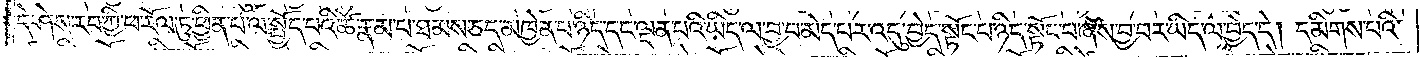དེ་ཤེས་རབ་ཀྱི་ཕ་རོལ་ཏུ་ཕྱིན་པ་ལ་སྤྱོད་པའི་ཚེ་རྣམ་པ་ཐམས་ཅད་མཁྱེན་པ་ཉིད་དང་ལྡན་པའི་ཡིད་ལ་བྱ་བ་མེད་པར་འདུ་བྱེད་སྟོང་པ་ཉིད་སྟོང་པ་ཞེས་བྱ་བར་ཡིད་ལ་བྱེད་དེ། དམིགས་པའི་
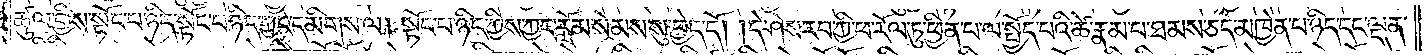ཚུལ་གྱིས་སྟོང་པ་ཉིད་སྟོང་པ་ཉིད་ཀྱང་དམིགས་ལ། སྟོང་པ་ཉིད་ཀྱིས་ཀྱང་རློམ་སེམས་སུ་བྱེད་དོ། །དེ་ཤེས་རབ་ཀྱི་ཕ་རོལ་ཏུ་ཕྱིན་པ་ལ་སྤྱོད་པའི་ཚེ་རྣམ་པ་ཐམས་ཅད་མཁྱེན་པ་ཉིད་དང་ལྡན་
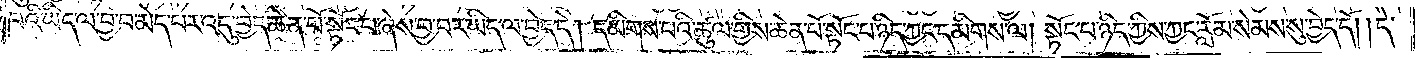པའི་ཡིད་ལ་བྱ་བ་མེད་པར་འདུ་བྱེད་ཆེན་པོ་སྟོང་པ་ཞེས་བྱ་བར་ཡིད་ལ་བྱེད་དེ། དམིགས་པའི་ཚུལ་གྱིས་ཆེན་པོ་སྟོང་པ་ཉིད་ཀྱང་དམིགས་ལ། སྟོང་པ་ཉིད་ཀྱིས་ཀྱང་རློམ་སེམས་སུ་བྱེད་དོ། །དེ་
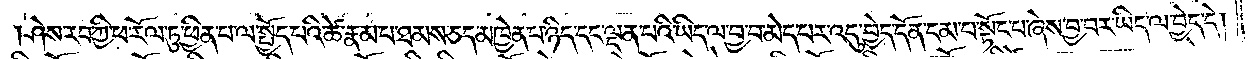ཤེས་རབ་ཀྱི་ཕ་རོལ་ཏུ་ཕྱིན་པ་ལ་སྤྱོད་པའི་ཚེ་རྣམ་པ་ཐམས་ཅད་མཁྱེན་པ་ཉིད་དང་ལྡན་པའི་ཡིད་ལ་བྱ་བ་མེད་པར་འདུ་བྱེད་དོན་དམ་པ་སྟོང་པ་ཞེས་བྱ་བར་ཡིད་ལ་བྱེད་དེ།
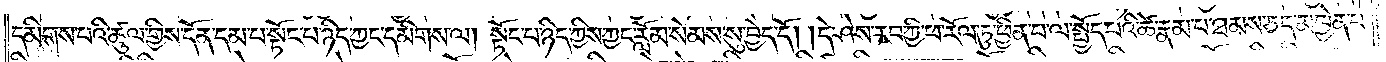དམིགས་པའི་ཚུལ་གྱིས་དོན་དམ་པ་སྟོང་པ་ཉིད་ཀྱང་དམིགས་ལ། སྟོང་པ་ཉིད་ཀྱིས་ཀྱང་རློམ་སེམས་སུ་བྱེད་དོ། །དེ་ཤེས་རབ་ཀྱི་ཕ་རོལ་ཏུ་ཕྱིན་པ་ལ་སྤྱོད་པའི་ཚེ་རྣམ་པ་ཐམས་ཅད་མཁྱེན་པ་
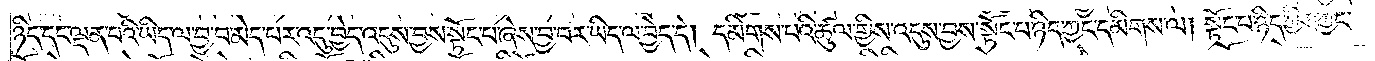ཉིད་དང་ལྡན་པའི་ཡིད་ལ་བྱ་བ་མེད་པར་འདུ་བྱེད་འདུས་བྱས་སྟོང་པ་ཞེས་བྱ་བར་ཡིད་ལ་བྱེད་དེ། དམིགས་པའི་ཚུལ་གྱིས་འདུས་བྱས་སྟོང་པ་ཉིད་ཀྱང་དམིགས་ལ། སྟོང་པ་ཉིད་ཀྱིས་ཀྱང་
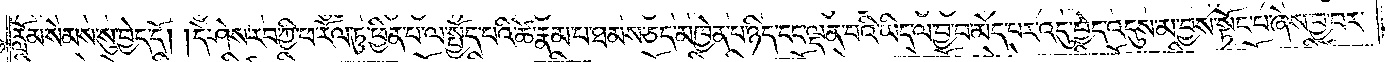རློམ་སེམས་སུ་བྱེད་དོ། །དེ་ཤེས་རབ་ཀྱི་ཕ་རོལ་ཏུ་ཕྱིན་པ་ལ་སྤྱོད་པའི་ཚེ་རྣམ་པ་ཐམས་ཅད་མཁྱེན་པ་ཉིད་དང་ལྡན་པའི་ཡིད་ལ་བྱ་བ་མེད་པར་འདུ་བྱེད་འདུས་མ་བྱས་སྟོང་པ་ཞེས་བྱ་བར་
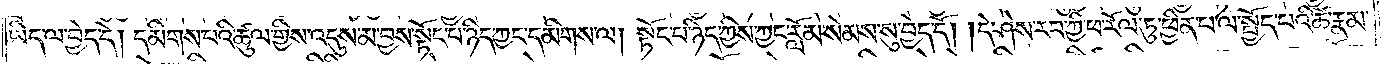ཡིད་ལ་བྱེད་དེ། དམིགས་པའི་ཚུལ་གྱིས་འདུས་མ་བྱས་སྟོང་པ་ཉིད་ཀྱང་དམིགས་ལ། སྟོང་པ་ཉིད་ཀྱིས་ཀྱང་རློམ་སེམས་སུ་བྱེད་དོ། །དེ་ཤེས་རབ་ཀྱི་ཕ་རོལ་ཏུ་ཕྱིན་པ་ལ་སྤྱོད་པའི་ཚེ་རྣམ་
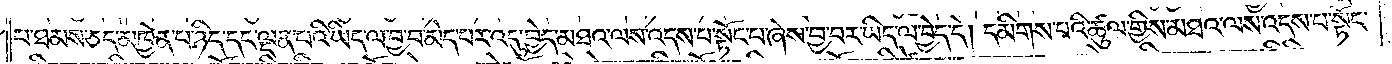པ་ཐམས་ཅད་མཁྱེན་པ་ཉིད་དང་ལྡན་པའི་ཡིད་ལ་བྱ་བ་མེད་པར་འདུ་བྱེད་མཐའ་ལས་འདས་པ་སྟོང་པ་ཞེས་བྱ་བར་ཡིད་ལ་བྱེད་དེ། དམིགས་པའི་ཚུལ་གྱིས་མཐའ་ལས་འདས་པ་སྟོང་
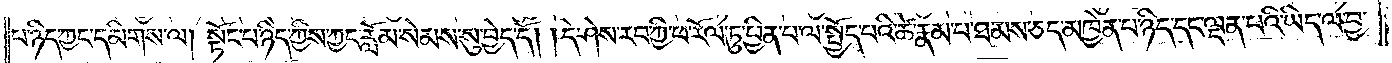པ་ཉིད་ཀྱང་དམིགས་ལ། སྟོང་པ་ཉིད་ཀྱིས་ཀྱང་རློམ་སེམས་སུ་བྱེད་དོ། །དེ་ཤེས་རབ་ཀྱི་ཕ་རོལ་ཏུ་ཕྱིན་པ་ལ་སྤྱོད་པའི་ཚེ་རྣམ་པ་ཐམས་ཅད་མཁྱེན་པ་ཉིད་དང་ལྡན་པའི་ཡིད་ལ་བྱ་
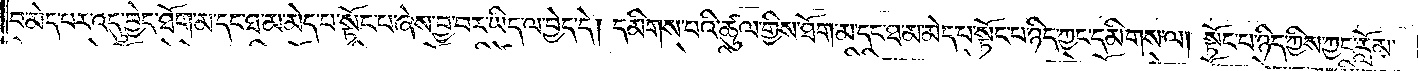བ་མེད་པར་འདུ་བྱེད་ཐོག་མ་དང་ཐ་མ་མེད་པ་སྟོང་པ་ཞེས་བྱ་བར་ཡིད་ལ་བྱེད་དེ། དམིགས་པའི་ཚུལ་གྱིས་ཐོག་མ་དང་ཐ་མ་མེད་པ་སྟོང་པ་ཉིད་ཀྱང་དམིགས་ལ། སྟོང་པ་ཉིད་ཀྱིས་ཀྱང་རློམ་
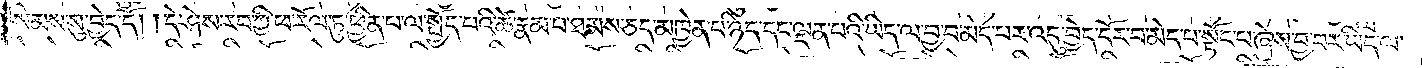སེམས་སུ་བྱེད་དོ། །དེ་ཤེས་རབ་ཀྱི་ཕ་རོལ་ཏུ་ཕྱིན་པ་ལ་སྤྱོད་པའི་ཚེ་རྣམ་པ་ཐམས་ཅད་མཁྱེན་པ་ཉིད་དང་ལྡན་པའི་ཡིད་ལ་བྱ་བ་མེད་པར་འདུ་བྱེད་དོར་བ་མེད་པ་སྟོང་པ་ཞེས་བྱ་བར་ཡིད་ལ་
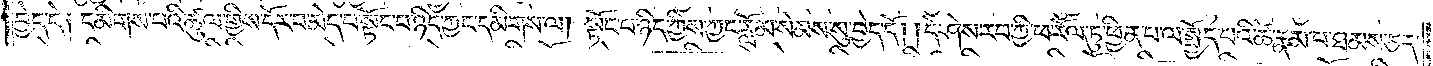བྱེད་དེ༑ དམིགས་པའི་ཚུལ་གྱིས་དོར་བ་མེད་པ་སྟོང་པ་ཉིད་ཀྱང་དམིགས་ལ། སྟོང་པ་ཉིད་ཀྱིས་ཀྱང་རློམ་སེམས་སུ་བྱེད་དོ། །དེ་ཤེས་རབ་ཀྱི་ཕ་རོལ་ཏུ་ཕྱིན་པ་ལ་སྤྱོད་པའི་ཚེ་རྣམ་པ་ཐམས་ཅད་
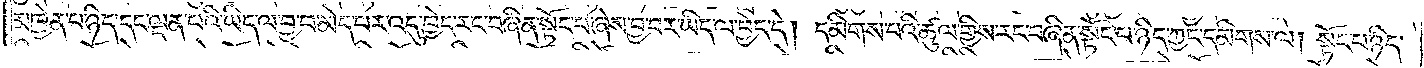མཁྱེན་པ་ཉིད་དང་ལྡན་པའི་ཡིད་ལ་བྱ་བ་མེད་པར་འདུ་བྱེད་རང་བཞིན་སྟོང་པ་ཞེས་བྱ་བར་ཡིད་ལ་བྱེད་དེ། དམིགས་པའི་ཚུལ་གྱིས་རང་བཞིན་སྟོང་པ་ཉིད་ཀྱང་དམིགས་ལ། སྟོང་པ་ཉིད་
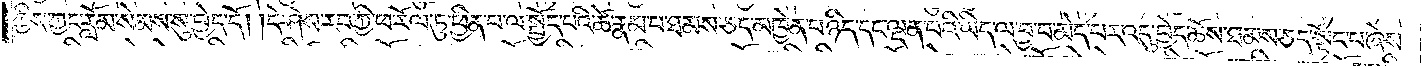ཀྱིས་ཀྱང་རློམ་སེམས་སུ་བྱེད་དོ། །དེ་ཤེས་རབ་ཀྱི་ཕ་རོལ་ཏུ་ཕྱིན་པ་ལ་སྤྱོད་པའི་ཚེ་རྣམ་པ་ཐམས་ཅད་མཁྱེན་པ་ཉིད་དང་ལྡན་པའི་ཡིད་ལ་བྱ་བ་མེད་པར་འདུ་བྱེད་ཆོས་ཐམས་ཅད་སྟོང་པ་ཞེས་
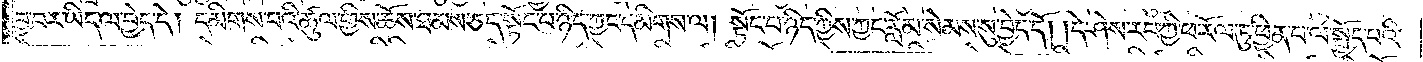བྱ་བར་ཡིད་ལ་བྱེད་དེ། དམིགས་པའི་ཚུལ་གྱིས་ཆོས་ཐམས་ཅད་སྟོང་པ་ཉིད་ཀྱང་དམིགས་ལ། སྟོང་པ་ཉིད་ཀྱིས་ཀྱང་རློམ་སེམས་སུ་བྱེད་དོ། །དེ་ཤེས་རབ་ཀྱི་ཕ་རོལ་ཏུ་ཕྱིན་པ་ལ་སྤྱོད་པའི་
